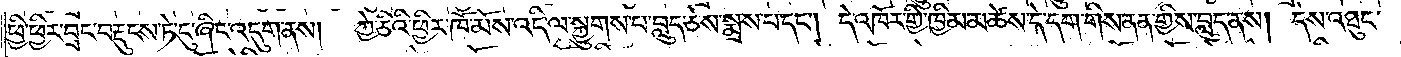ཕྱི་ཕྱིར་བྲང་བརྡུངས་ཏེ་ངུ་ཞིང་འདུག་ནས། ཀྱེ་ཅིའི་ཕྱིར་ཁོ་མོས་འདི་ལ་སྐྱུགས་པ་བླུད་ཅེས་སྨྲས་པ་དང༌། དེ་འཁོར་གྱི་ཁྱིམ་མཚེས་དེ་དག་གིས་ནན་གྱིས་བླུད་ནས། དེས་འཐུང་
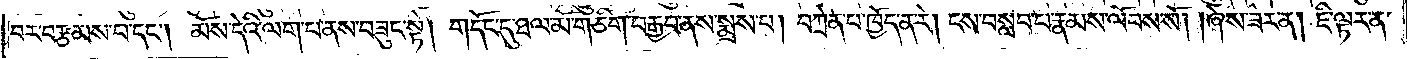བར་བརྩམས་པ་དང༌། མོས་དེའི་ལག་པ་ནས་བཟུང་སྟེ། གདོང་དུ་ཐལ་མོ་གཅིག་བརྒྱབ་ནས་སྨྲས་པ། བཀྲེན་པ་ཁྱོད་ན་རེ། ངས་བསླབ་པ་རྣམས་ལོབས་སོ། །ཞེས་ཟེར་ན། ཇི་ལྟར་ན་
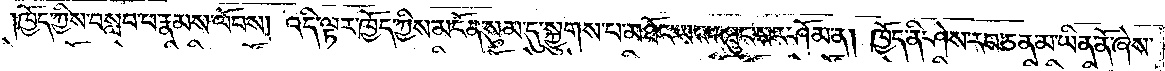ཁྱོད་ཀྱིས་བསླབ་པ་རྣམས་ལོབས། འདི་ལྟར་ཁྱོད་ཀྱིས་མངོན་སུམ་དུ་སྐྱུགས་པ་མཐོང་ཡང་འཐུང་བར་ཤོམ་ན། ཁྱོད་ནི་ཤེས་རབ་ཅན་མ་ཡིན་ནོ་ཞེས་
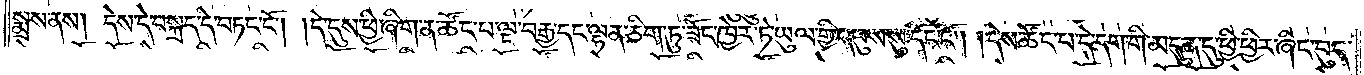སྨྲས་ནས། དེས་དེ་བསྐྲད་དེ་བཏང་ངོ༌། །དེ་དུས་ཕྱི་ཞིག་ན་ཚོང་པ་ལྔ་བརྒྱ་དང་ལྷན་ཅིག་ཏུ་ཟོང་ཁྱེར་ཏེ་ཡུལ་གྱི་དབུས་སུ་དོང་ངོ༌། །དེས་ཚོང་པ་དེ་དག་གི་མདུན་དུ་ཕྱི་ཕྱིར་ཞིང་བུད་
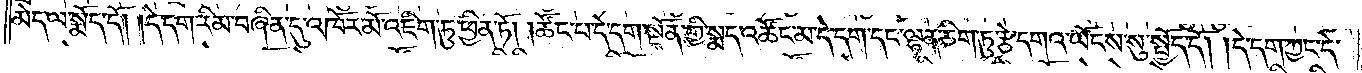མེད་ལ་སྨོད་དོ། །དེ་དག་རིམ་བཞིན་དུ་འཁོར་མོ་འཇིག་ཏུ་ཕྱིན་ཏོ། །ཚོང་པ་དེ་དག་སྔོན་གྱི་སྨད་འཚོང་མ་དེ་དག་དང་ལྷན་ཅིག་ཏུ་རྩེ་དགའ་ཡོངས་སུ་སྤྱོད་དོ། །དེ་དག་ཀྱང་དེ་
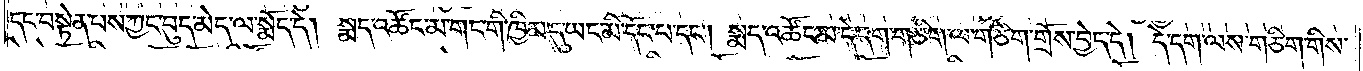དང་བསྟེན་པས་ཀྱང་བུད་མེད་ལ་སྨོད་དེ། སྨད་འཚོང་མ་གང་གི་ཁྱིམ་དུ་ཡང་མི་དོང་པ་དང༌། སྨད་འཚོང་མ་དེ་དག་གཅིག་ལ་གཅིག་གྲོས་བྱེད་དེ། དེ་དག་ལས་གཅིག་གིས་
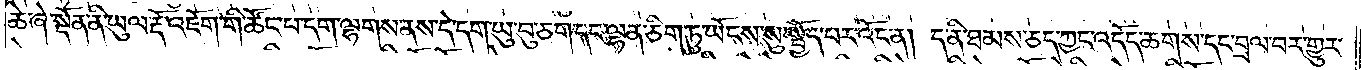ཆེ་ཞེ་སྔོན་ནི་ཡུལ་རྡོ་འཇོག་གི་ཚོང་པ་དག་ལྷགས་ནས་དེ་དག་ཡུ་བུ་ཅག་དང་ལྷན་ཅིག་ཏུ་ཡོངས་སུ་སྤྱོད་པར་འོང་ན། ད་ནི་ཐམས་ཅད་ཀྱང་འདོད་ཆགས་དང་བྲལ་བར་གྱུར་
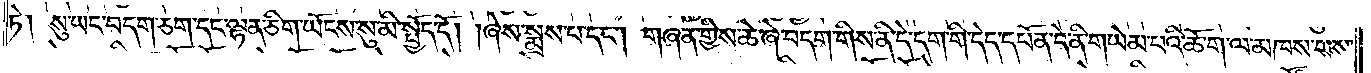ཏེ། སུ་ཡང་བདག་ཅག་དང་ལྷན་ཅིག་ཡོངས་སུ་མི་སྤྱོད་དོ། །ཞེས་སྨྲས་པ་དང༌། གཞན་གྱིས་ཆེ་ཞེ་བདག་གིས་ནི་དེ་དག་གི་དེད་དཔོན་དེ་ནི་གཡེམ་པའི་ཆོ་ག་ལ་མཁས་པས་
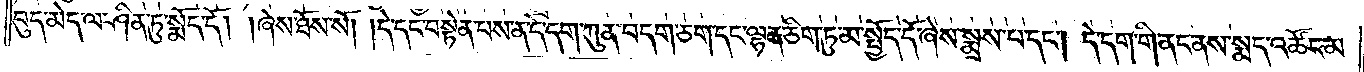བུད་མེད་ལ་ཤིན་ཏུ་སྨོད་དོ། །ཞེས་ཐོས་སོ། །དེ་དང་བསྟེན་པས་ན་དེ་དག་ཀུན་བདག་ཅག་དང་ལྷན་ཅིག་ཏུ་མ་སྤྱོད་དོ་ཞེས་སྨྲས་པ་དང༌། དེ་དག་གི་ནང་ནས་སྨད་འཚོང་མ་
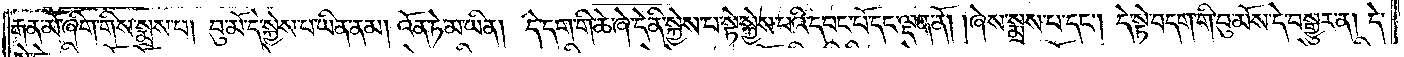རྒན་མོ་ཞིག་གིས་སྨྲས་པ། བུ་མོ་དེ་སྐྱེས་པ་ཡིན་ནམ། འོན་ཏེ་མ་ཡིན། དེ་དག་གི་ཆེ་ཞེ་དེ་ནི་སྐྱེས་པ་སྟེ་སྐྱེས་པའི་དབང་པོ་དང་ལྡན་ནོ། །ཞེས་སྨྲས་པ་དང༌། དེ་སྟེ་བདག་གི་བུ་མོས་དེ་བསྒྱུར་ནས། དེ་
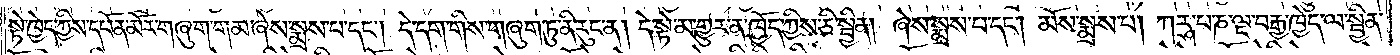སྟེ་ཁྱེད་ཀྱིས་དཔོན་མོར་གཞུག་གམ་ཞེས་སྨྲས་པ་དང༌། དེ་དག་གིས་གཞུག་ཏུ་ནི་རུང་ན། དེ་སྟེ་མ་གྱུར་ན་ཁྱོད་ཀྱིས་ཅི་སྦྱིན། ཞེས་སྨྲས་པ་དང༌། མོས་སྨྲས་པ། ཀཪྴ་པ་ཎ་ལྔ་བརྒྱ་ཁྱེད་ལ་སྦྱིན་
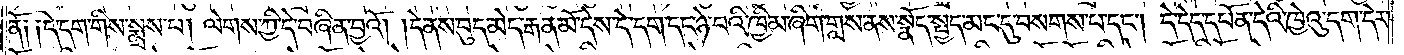ནོ༑ ༑དེ་དག་གིས་སྨྲས་པ། ལེགས་ཀྱི་དེ་བཞིན་བྱའོ། །དེ་ནས་བུད་མེད་རྒན་མོ་དེས་དེ་དག་དང་ཉེ་བའི་ཁྱིམ་ཞིག་གླས་ན་སྣོད་སྤྱད་མང་དུ་བསགས་པ་དང༌། དེ་དེད་དཔོན་དེའི་ཁྱེའུ་དག་དེར་
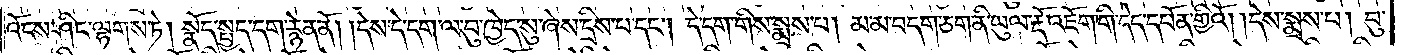འོངས་ཤིང་ལྷགས་ཏེ། སྣོད་སྤྱད་དག་རྙེན་ནོ། །དེས་དེ་དག་ལ་བུ་ཁྱེད་སུ་ཞེས་དྲིས་པ་དང༌། དེ་དག་གིས་སྨྲས་པ། མ་མ་བདག་ཅག་ནི་ཡུལ་རྡོ་འཇོག་གི་དེད་དཔོན་གྱིའོ། །དེས་སྨྲས་པ། བུ་
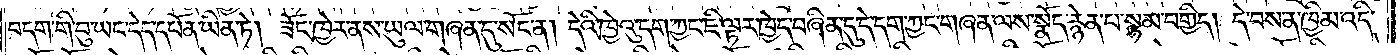བདག་གི་བུ་ཡང་དེད་དཔོན་ཡིན་ཏེ། ཟོང་ཁྱེར་ནས་ཡུལ་གཞན་དུ་སོང་ན། དེའི་ཁྱེའུ་དག་ཀྱང་ཇི་ལྟར་ཁྱེད་བཞིན་དུ་དེ་དག་ཀྱང་གཞན་ལས་སྣོད་རྙེན་པ་སྙམ་བགྱིད། དེ་བས་ན་ཁྱིམ་འདི་
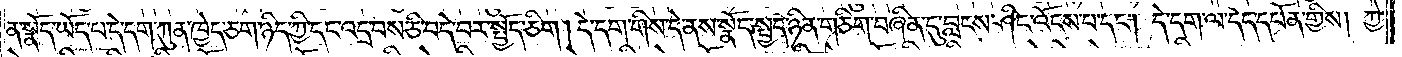ན་སྣོད་ཡོད་པ་དེ་དག་ཀུན་ཁྱེད་ཅག་ཉིད་ཀྱི་དང་འདྲ་བས་ཅི་བདེ་བར་སྤྱོད་ཅིག །དེ་དག་གིས་དེ་ནས་སྣོད་སྤྱད་ཉིན་གཅིག་བཞིན་དུ་བླངས་ཤིང་འོངས་པ་དང༌། དེ་དག་ལ་དེད་དཔོན་གྱིས། ཀྱེ་
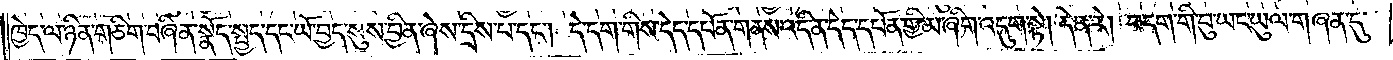ཁྱེད་ལ་ཉིན་གཅིག་བཞིན་སྣོད་སྤྱད་དང་ཡོ་བྱད་སུས་བྱིན་ཞེས་དྲིས་པ་དང༌། དེ་དག་གིས་དེད་དཔོན་གནས་འདི་ན་དེད་དཔོན་གྱི་མ་ཞིག་འདུག་སྟེ། དེ་ན་རེ། བདག་གི་བུ་ཡང་ཡུལ་གཞན་དུ་
